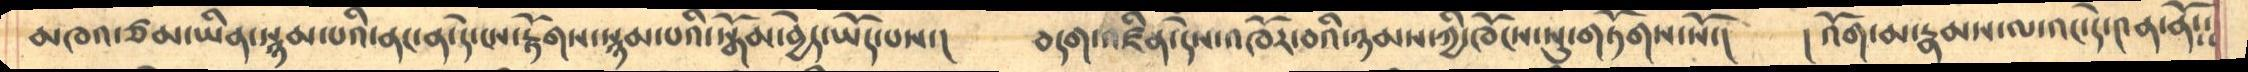མཁའ་ཙམ་ཡིན་སྙམ་པའི་ནང་ན་དེ་ངས་རྟོགས་སྙམ་པའི་སྒོམ་བྱེད་ཡོད་པས་།   བདག་འཛིན་དེས་འཁོར་བའི་ཉམས་ཀྱི་ཁོངས་སུ་གཏོགས་སོ་།   ། འོག་མ་རྣམས་ལ་འང་དེ་༤ན་ནོ༴༴
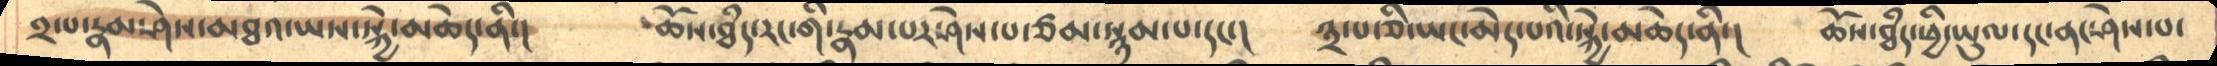༢་པ་རྣམ་ཤེས་མཐའ་ཡས་སྐྱེ་མཆེད་ནི་།   ཆོས་ཐྃད་རང་གི་རྣམ་པར་ཤེས་པ་ཙམ་སྙམ་པ་དང་།   ༣་པ་ཅི་ཡང་མེད་པའི་སྐྱེ་མཆེད་ནི་།   ཆོས་ཐྃད་ཕྱི་ཡུལ་དང་ནང་ཤེས་པ་
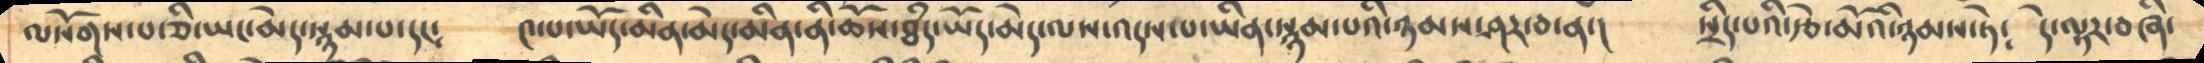ལསོགས་པ་ཅི་ཡང་མེད་སྙམ་པ་དང༴    ༤་པ་ཡོད་མིན་མེད་མིན་ནི་ཆོས་ཐྃད་ཡོད་མེད་ལས་འདས་པ་ཡིན་སྙམ་པའི་ཉམས་ཤར་བ་ན་།    སྲིད་པའི་རྩེ་མོའི་ཉམས་ཏེ༴   དེ་ལྟར་བཞི་
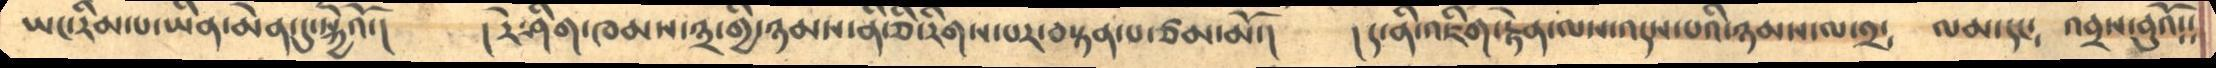ཡང་རིམ་པ་ཡིན་མེན་དུ་སྐྱེའོ་།   ། རེ་ཤིག་ཁམས་༣་གྱི་ཉམས་ནི་ཅི་རིགས་པར་བསྟན་པ་ཙམ་མོ་།    །ད་ནི་འཇིག་རྟེན་ལས་འདས་པའི་ཉམས་ལ་༢༴   ལམ་དང༴   འབྲས་བུའོ༴༴
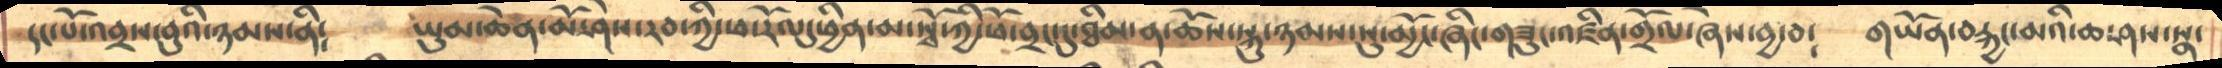དང་པོ་འབྲས་བུའི་ཉམས་ནི༴   ཡུམ་ཆེན་མོ་ཤེས་རབ་ཀྱི་ཕ་རོལ་དུ་ཕྱིན་མ་སྭོ་ཀྱི་ཕོ་བྲང་དུ་ཐིམ་ན་ཆོས་སྐུ་ཉམས་སུ་མྱོང་ཞིང་གཟུང་འཛིན་གྲོལ་ཞེས་བྱ་བ༴   གཡོན་བརྐྱང་མའི་ཆ་ཤས་སྣ་
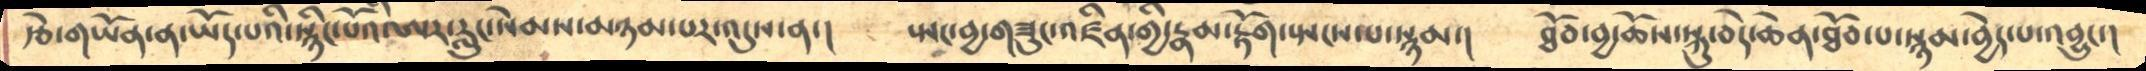རྩེ་གཡོན་ན་ཡོད་པའི་སྙིང་པོའི་ཨར་རླུང་སེམས་མཉམ་པར་འདུས་ན་།    སྤང་བྱ་གཟུང་འཛིན་གྱི་རྣམ་རྟོག་སྤངས་པ་སྙམ་།   ཐོབ་བྱ་ཆོས་སྐུ་བདེ་ཆེན་ཐོབ་པ་སྙམ་བྱེད་པ་འབྱུང་།
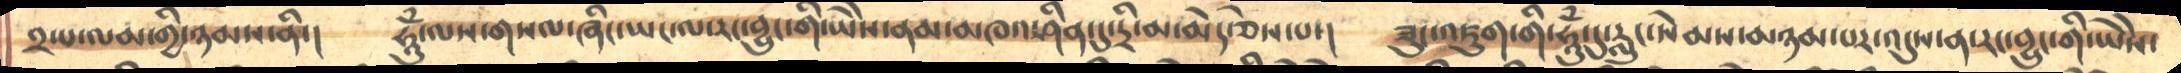༢་པ་ལམ་གྱི་ཉམས་ནི་།   ཧཱུྃ་ལས་གསལ་ཞིང་ཡང་ལ་རང་བྱུང་གི་ཡེེས་ནམ་མཁར་ཤིན་དུ་དྲི་མ་མེད་ཅེས་པ་།   ཟུང་འཇུག་གི་ཧཱུྃ་དུ་རླུང་སེམས་མཉམ་པར་འདུས་ན་རང་བྱུང་གི་ཡེེས་
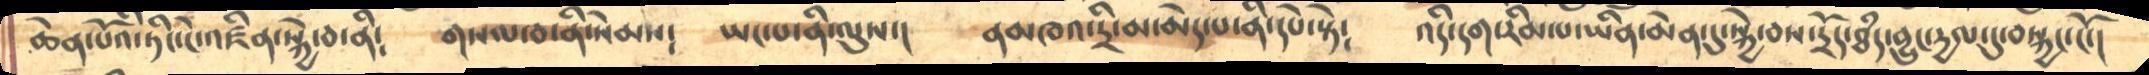ཆེན་པོའི་ཏིང་ངེ་འཛིན་སྐྱེ་བ་ནི༴    གསལ་བ་ནི་སེམས༴  ཡང་པ་ནི་ལུས་།   ནམཁའ་དྲི་མ་མེད་པ་ནི་དཔེ་སྟེ༴   འདི་དག་རིམ་པ་ཡིན་མེན་དུ་སྐྱེ་བས་དྲོད་ཐྃད་བྱུང་དྱལ་དུ་བསྐྱང་ངོ་།
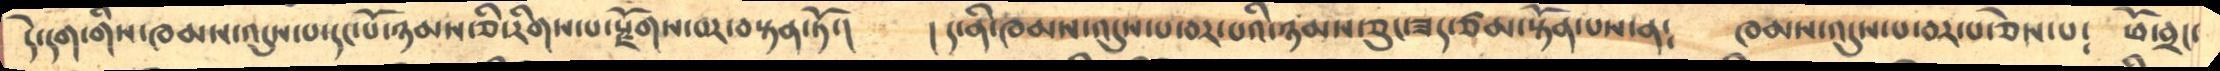དེ་དག་གིས་ཁམས་འདུས་པ་དང་པོ་ཉམས་ཅི་རིགས་པ་རྫོགས་པར་བསྟན་ཏོ་།   ། ད་ནི་ཁམས་འདུས་པ་བར་པའི་ཉམས་ཅུང་ཟད་ཙམ་སྟོན་པས་ན༴  ཁམས་འདུས་པ་བར་པ་ཅེས་པ༴  ཕོ་བྲང་
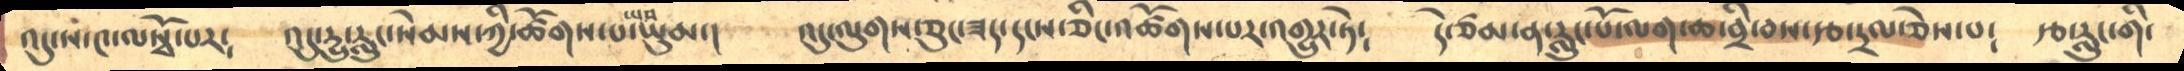འདུ་ས་༤་ལསྭོ་པར༴   འདུ་དྱུ་རླུང་སེམས་ཀྱི་ཚོགས་པ་ཡབ་ཡུམ་།    འདུ་ལུགས་ཅུང་ཟད་དངས་ཅིང་འཚོགས་པར་འགྱུར་ཏེ༴   དེ་ཙམ་ན་རླུང་པོ་ལག་ཆ་བྲི་བས་རྩ་དྲལ་ཅེས་པ༴   རྩ་རླུང་གི་
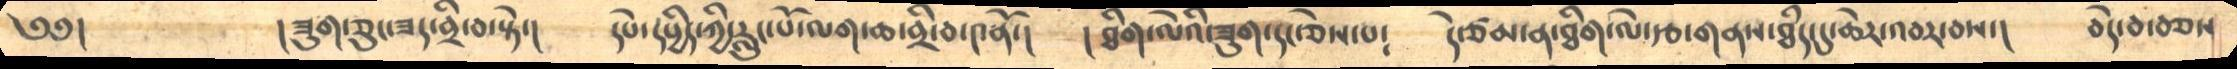༄༅།        །ཟུག་ཅུང་ཟད་བྲི་བ་སྟེ་།    དེས་དཔྱིད་ཀྱི་རླུང་པོ་ལག་ཆ་བྲི་བ་༤ནོ་།   །ཐིག་ལེའི་ཟུག་དང་ཅེས་པ༴   དེ་ཙམ་ན་ཐིག་ལེ་རྩ་གནས་ཐྃད་དུ་ཆེར་འབར་བས་།    བདེ་བ་བཅས
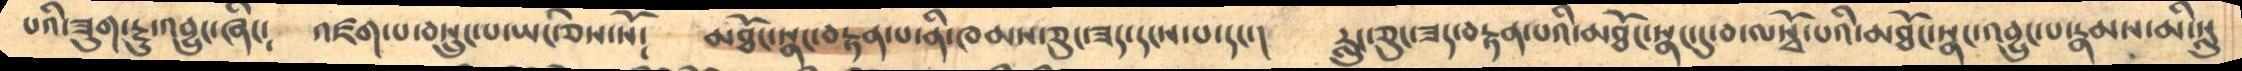པའི་ཟུག་རྔུ་འབྱུང་ཞིང༴    འཛག་པ་བསྲུང་པ་ཡང་ཅིས་སོ༴   མཐོང་སྣང་བརྟན་པ་ནི་ཁམས་ཅུང་ཟད་དངས་པ་དང་།   རླུང་ཅུང་ཟད་བརྟན་པའི་མཐོང་སྣང་དུ་བ་ལསྭོ་པའི་མཐོང་སྣང་འབྱུང་པ་རྣམས་མི་སླུ
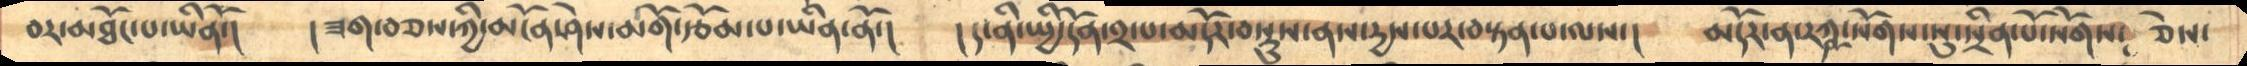བར་མཐོང་པ་ཡིནོ་།    ། ཟག་བཅས་ཀྱི་མངོན་ཤེས་མགོ་རྩོམ་པ་ཡིན་ནོ་།   །ད་ནི་སྤྱི་དོན་༢་པ་མདོར་བསྡུས་ནས་དྱས་པར་བསྟན་པ་ལས་།    མདོར་ན་རཀྵ་སོགས་སུ་སྲིན་པོ་སོགས༴   ཅེས་
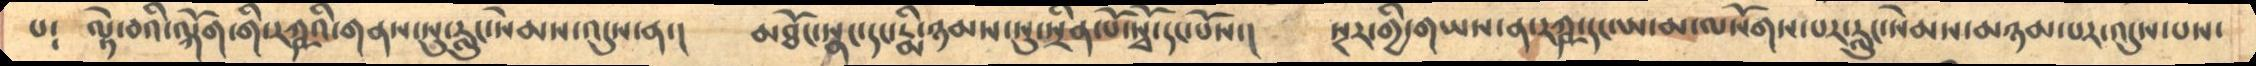པ༴   ལྟེ་བའི་ལྐོག་གི་རཀྵའི་གནས་སུ་རླུང་སེམས་འདུས་ན་།   མཐོང་སྣང་དང་རྨི་ཉམས་སུ་སྲིན་པོ་སྭོ་དང་པོས་།    སྔར་གྱི་གཡས་ན་རཀྵ་དང་ཡ་མ་ལསོགས་པར་རླུང་སེམས་མཉམ་པར་འདུས་པས་
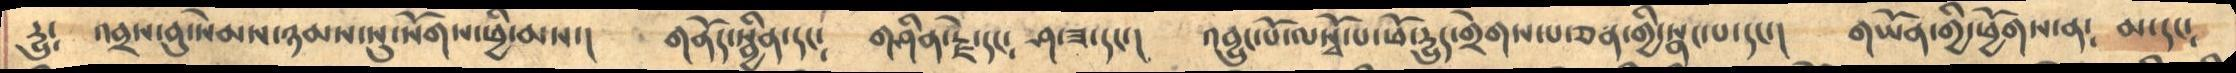དྱུ༴    འབྲས་བུ་སེམས་ཉམས་སུ་སོགས་ཕྱི་མས་།    གནོད་སྦྱིན་དང༴   གཤིན་རྗེ་དང༴   ཤ་ཟ་དང་།  འབྱུང་པོ་ལསྭོ་པ་ཕོ་དྱུད་གྲེགས་པ་ཅན་གྱི་སྣང་པ་དང་།    གཡོན་གྱི་ཕྱོགས་ན༴  མ་དང༴
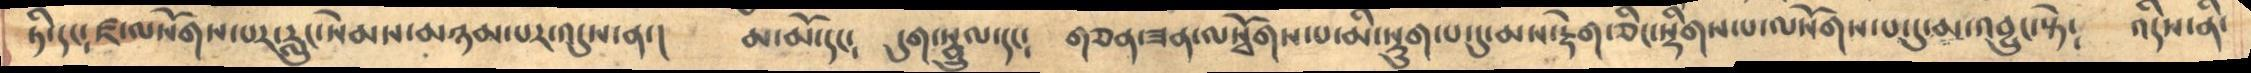ཏི་དང༴ཛ་ལསོགས་པར་རླུང་སེམས་མཉམ་པར་འདུས་ན་།     མ་མོ་དང༴  དུག་སྦྲུལ་དང༴  གཅན་ཟན་ལསྭོགས་པ་མི་སྡུག་པ་དུ་མས་རྟེག་ཅིང་སྡིགས་པ་ལསོགས་པ་དུ་མ་འབྱུང་སྟེ༴   འདིས་ནི་
